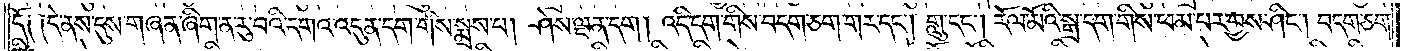དོ༑ ༑དེ་ནས་དུས་གཞན་ཞིག་ན་རུ་བའི་དགའ་འདུན་དག་གིས་སྨྲས་པ། ཤེས་ལྡན་དག །འདི་དག་གིས་བདག་ཅག་གར་དང༌། གླུ་དང༌། རོལ་མོའི་སྒྲ་དག་གིས་ཕམ་པར་བྱས་ཤིང༌། བདག་ཅག་
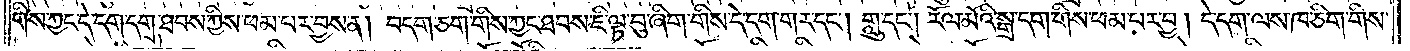གིས་ཀྱང་དེ་དག་དགྲ་ཐབས་ཀྱིས་ཕམ་པར་བྱས་ན། བདག་ཅག་གིས་ཀྱང་ཐབས་ཇི་ལྟ་བུ་ཞིག་གིས་དེ་དག་གར་དང༌། གླུ་དང༌། རོལ་མོའི་སྒྲ་དག་གིས་ཕམ་པར་བྱ། དེ་དག་ལས་ཁ་ཅིག་གིས་
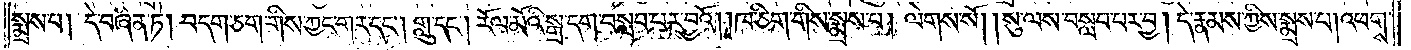སྨྲས་པ། དེ་བཞིན་ཏེ། བདག་ཅག་གིས་ཀྱང་གར་དང༌། གླུ་དང༌། རོལ་མོའི་སྒྲ་དག་བསླབ་པར་བྱའོ། །ཁ་ཅིག་གིས་སྨྲས་པ། ལེགས་སོ། །སུ་ལས་བསླབ་པར་བྱ། དེ་རྣམས་ཀྱིས་སྨྲས་པ། འཕགས་
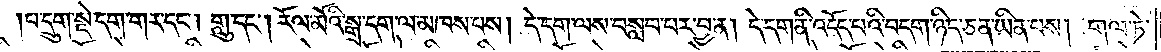པ་དྲུག་སྡེ་དག་གར་དང༌། གླུ་དང༌། རོལ་མོའི་སྒྲ་དག་ལ་མཁས་པས། དེ་དག་ལས་བསླབ་པར་བྱ་ན། དེ་དག་ནི་འདོད་པའི་བདག་ཉིད་ཅན་ཡིན་པས། གལ་ཏེ་
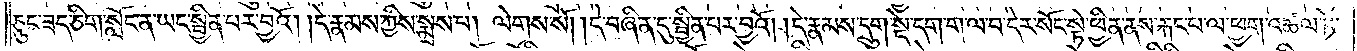ཅུང་ཟད་ཅིག་སློང་ན་ཡང་སྦྱིན་པར་བྱའོ། །དེ་རྣམས་ཀྱིས་སྨྲས་པ། ལེགས་སོ། །དེ་བཞིན་དུ་སྦྱིན་པར་བྱའོ། །དེ་རྣམས་དྲུག་སྡེ་དག་ག་ལ་བ་དེར་སོང་སྟེ་ཕྱིན་ནས་རྐང་པ་ལ་ཕྱག་འཚལ་ཏེ་
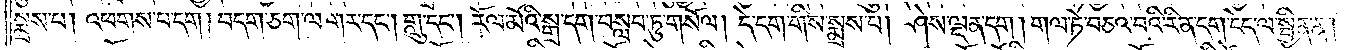སྨྲས་པ། འཕགས་པ་དག །བདག་ཅག་ལ་གར་དང༌། གླུ་དང༌། རོལ་མོའི་སྒྲ་དག་བསླབ་ཏུ་གསོལ། དེ་དག་གིས་སྨྲས་པ། ཤེས་ལྡན་དག །གལ་ཏེ་བཅའ་བའི་རིན་དག་ངེད་ལ་སྦྱིན་ན།
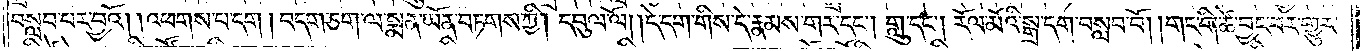བསླབ་པར་བྱའོ། །འཕགས་པ་དག །བདག་ཅག་ལ་སྨན་ཡོན་བཏགས་ཀྱི། དབུལ་ལོ། །དེ་དག་གིས་དེ་རྣམས་གར་དང༌། གླུ་དང༌། རོལ་མོའི་སྒྲ་དག་བསླབ་བོ། །གང་གི་ཚེ་བྱང་བར་གྱུར་
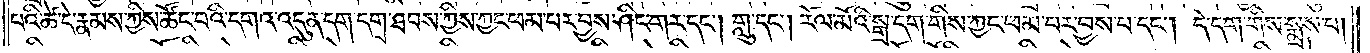པའི་ཚེ་དེ་རྣམས་ཀྱིས་ཚོང་པའི་དགའ་འདུན་དག་དགྲ་ཐབས་ཀྱིས་ཀྱང་ཕམ་པར་བྱས་ཤིང་གར་དང༌། གླུ་དང༌། རོལ་མོའི་སྒྲ་དག་གིས་ཀྱང་ཕམ་པར་བྱས་པ་དང༌། དེ་དག་གིས་སྨྲས་པ།
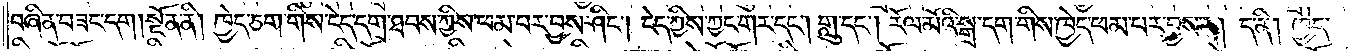བཞིན་བཟང་དག །སྔོན་ནི། ཁྱེད་ཅག་གིས་ངེད་དགྲ་ཐབས་ཀྱིས་ཕམ་པར་བྱས་ཤིང༌། ངེད་ཀྱིས་ཀྱང་གར་དང༌། གླུ་དང༌། རོལ་མོའི་སྒྲ་དག་གིས་ཁྱེད་ཕམ་པར་བྱས་ན། ད་ནི། ཁྱེད་
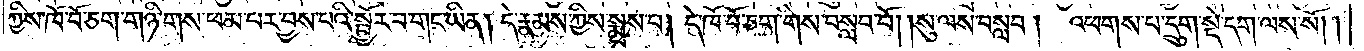ཀྱིས་ཁོ་བོ་ཅག་གཉི་གས་ཕམ་པར་བྱས་པའི་སྦྱོར་བ་གང་ཡིན། དེ་རྣམས་ཀྱིས་སྨྲས་པ། དེ་ཁོ་བོ་ཅག་གིས་བསླབ་པོ། །སུ་ལས་བསླབ། འཕགས་པ་དྲུག་སྡེ་དག་ལས་སོ། །
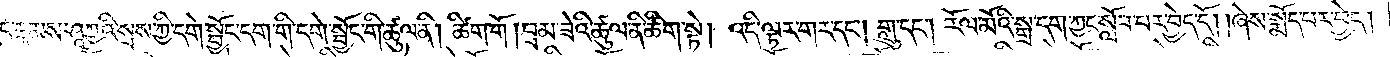དེ་རྣམས་ཤཱཀྱའི་སྲས་ཀྱི་དགེ་སྦྱོང་དག་གི་དགེ་སྦྱོང་གི་ཚུལ་ནི། ཚིག་གོ །བྲམ་ཟེའི་ཚུལ་ནི་ཚིག་སྟེ། འདི་ལྟར་གར་དང༌། གླུ་དང༌། རོལ་མོའི་སྒྲ་དག་ཀྱང་སློབ་པར་བྱེད་དོ། །ཞེས་སྨོད་པར་བྱེད།
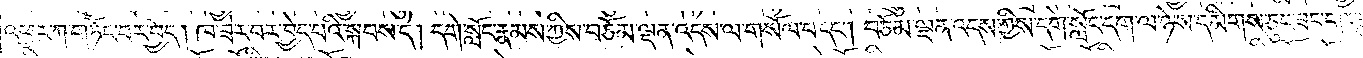འཕྱར་ཀ་གཏོང་བར་བྱེད། ཁ་ཟེར་བར་བྱེད་པའི་སྐབས་དེ། དགེ་སློང་རྣམས་ཀྱིས་བཅོམ་ལྡན་འདས་ལ་གསོལ་བ་དང༌། བཅོམ་ལྡན་འདས་ཀྱིས་དགེ་སློང་དག་ལ་ཉེས་དམིགས་ཅུང་ཟད་གང་
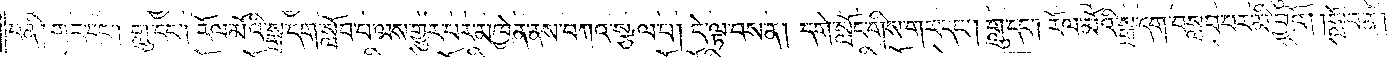བ་ནི། གར་དང༌། གླུ་དང༌། རོལ་མོའི་སྒྲ་དག་སློབ་པ་ལས་གྱུར་པར་མཁྱེན་ནས་བཀའ་སྩལ་པ། དེ་ལྟ་བས་ན། དགེ་སློང་གིས་གར་དང༌། གླུ་དང༌། རོལ་མོའི་སྒྲ་དག་བསླབ་པར་མི་བྱའོ། །སློབ་ན།
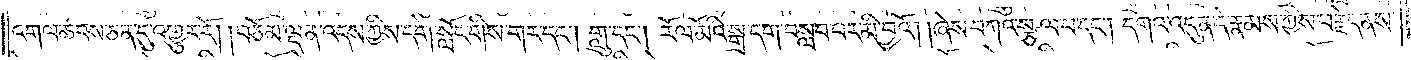འགལ་ཚབས་ཅན་དུ་འགྱུར་རོ། །བཅོམ་ལྡན་འདས་ཀྱིས་དགེ་སློང་གིས་གར་དང༌། གླུ་དང༌། རོལ་མོའི་སྒྲ་དག་བསླབ་པར་མི་བྱའོ། །ཞེས་བཀའ་སྩལ་པ་དང༌། དགའ་འདུན་དེ་རྣམས་ཀྱིས་བརྗེད་ནས་
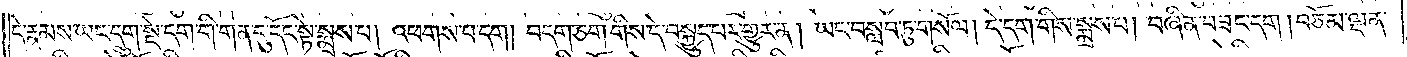དེ་རྣམས་ཡང་དྲུག་སྡེ་དག་གི་གན་དུ་དོང་སྟེ་སྨྲས་པ། འཕགས་པ་དག །བདག་ཅག་གིས་དེ་བསྐྱུད་པར་གྱུར་ན། ཡང་བསླབ་ཏུ་གསོལ། དེ་དག་གིས་སྨྲས་པ། བཞིན་བཟང་དག །བཅོམ་ལྡན་
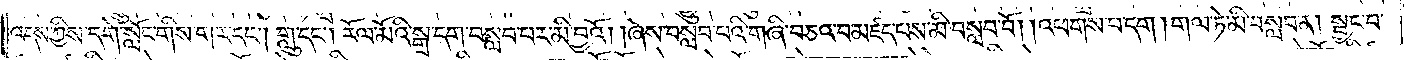འདས་ཀྱིས་དགེ་སློང་གིས་གར་དང༌། གླུ་དང༌། རོལ་མོའི་སྒྲ་དག་བསླབ་པར་མི་བྱའོ། །ཞེས་བསླབ་པའི་གཞི་བཅའ་བ་མཛད་པས་མི་བསླབ་བོ། །འཕགས་པ་དག །གལ་ཏེ་མི་བསླབ་ན། སྦྱང་བ་
